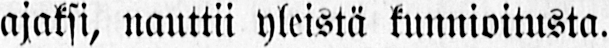ajaksi, nauttii yleistä kunnioitusta.
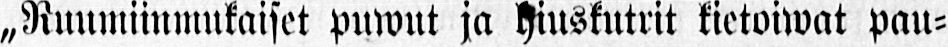„Ruumiinmukaiset puwut ja hiuskutrit kietoiwat pau-
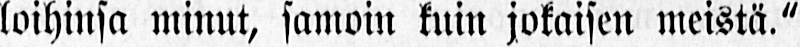loihinsa minut, samoin kuin jokaisin meistä."
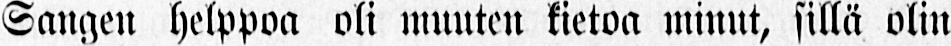Sangen helppoa oli muuten kietoa minut, sillä olin
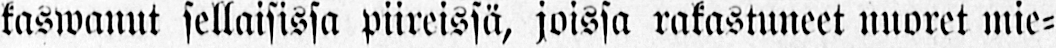kaswanut sellaisissa piireissä, joissa rakastuneet nuoret mie-
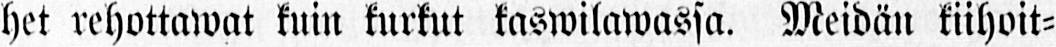het rehottawat kuin kurkut kaswilawassa. Meidän kiihoit-
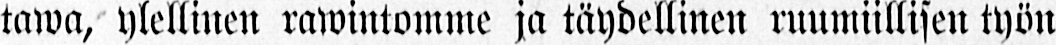tawa, ylellinen rawintomme ja täydellinen ruumiillisin työn
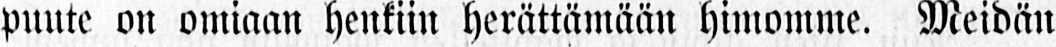puute on omiaan henkiin herättämään himomme. Meidän
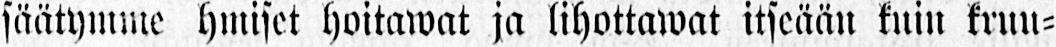säätymme hmiset hoitawat ja lihottawat itseään kuin kruu-
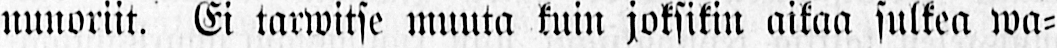nunoriit. Ei tarwitse muuta kuin joksikin aikaa sulkea wa-
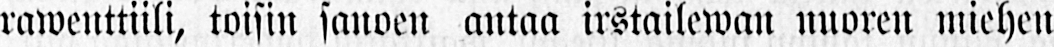rawenttiili, toisin sanoen antaa irstailewan nuoren miehen
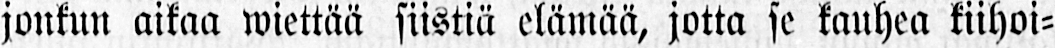jonkun aikaa wiettää siistiä elämää, jotta se kauhea kiihoi-
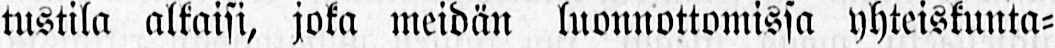tustila alkaisi, joka meidän luonnottomissa yhteiskunta-
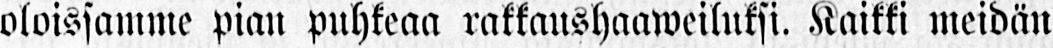oloissamme pian puhkeaa rakkaushaaweiluksi. Kaikki meidän
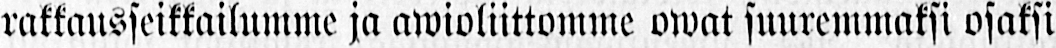rakkausseikkailumme ja awioliittomme owat suuremmaksi osaksi
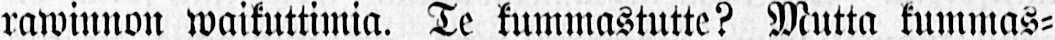rawinnon waikuttimia. Te kummastutte? Mutta kummas-
